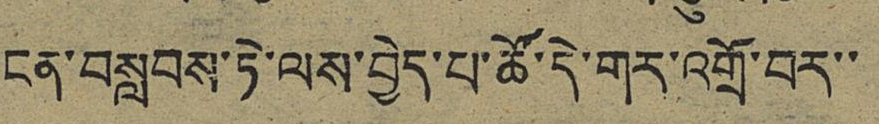ངན་བསླབས་ཏེ་ལས་བྱེད་པ་ཚོ་དེ་གར་འགྲོ་བར་་
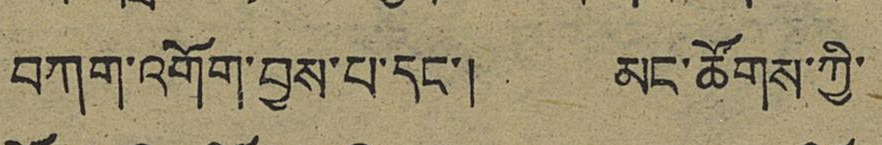བཀག་འགོག་བྱས་པ་དང་། མང་ཚོགས་ཀྱི་
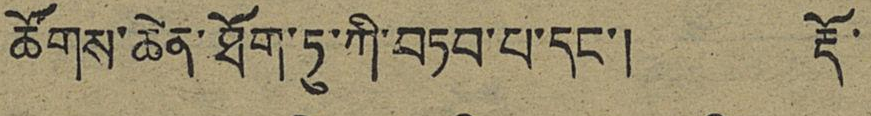ཚོགས་ཆེན་ཐོག་ཏུ་ཀི་བཏབ་པ་དང་། རྡོ་
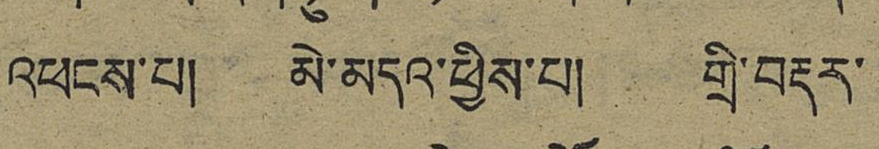འཕངས་པ། མེ་མདའ་ཕྱིས་པ། གྲི་བརྡར་
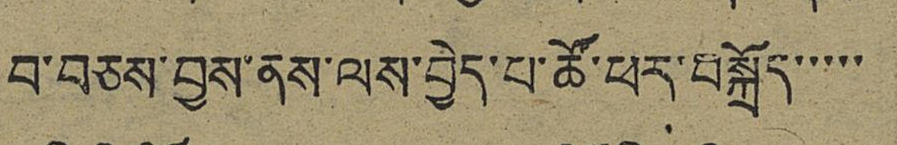བ་བཅས་བྱས་ནས་ལས་བྱེད་པ་ཚོ་ཕར་བསྐྲོད་་་་་་
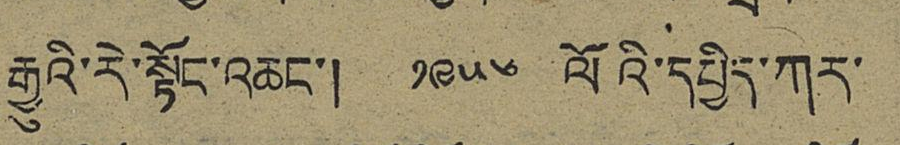རྒྱུའི་རེ་སྟོང་འཆང་། ༡༩༥༦ ལོའི་དཔྱིད་ཀར་
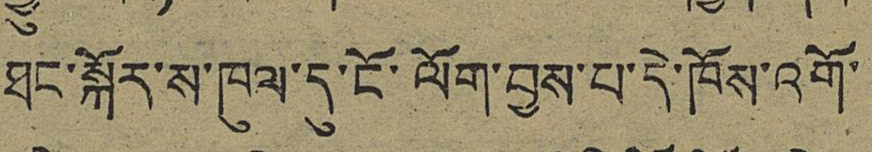ཐང་སྐོར་ས་ཁུལ་དུ་ངོ་ལོག་བྱས་པ་དེ་ཁོས་འགོ་
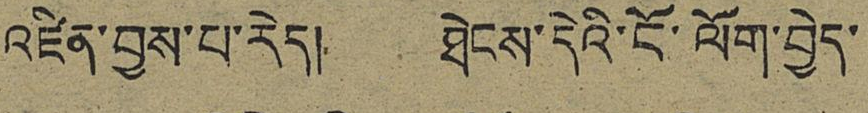འཛིན་བྱས་པ་རེད། ཐེངས་དེའི་ངོ་ལོག་བྱེད་
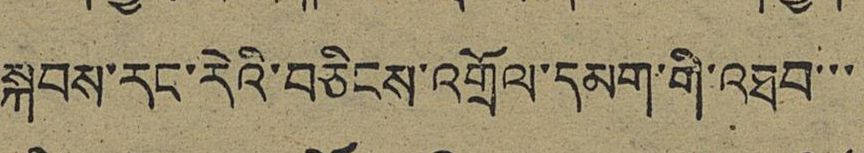སྐབས་རང་རེའི་བཅིངས་འགྲོལ་དམག་གི་འཐབ་་་
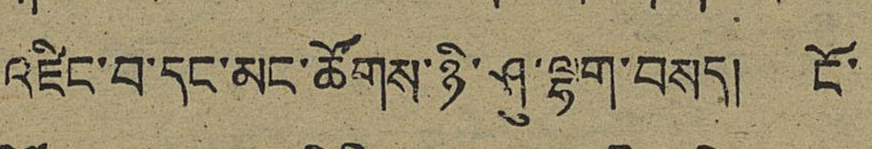འཛིང་བ་དང་མང་ཚོགས་ཉི་ཤུ་ལྷག་བསད། ངོ་
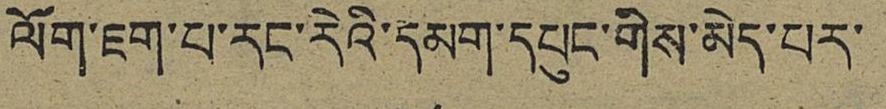ལོག་ཇག་པ་རང་རེའི་དམག་དཔུང་གིས་མེད་པར་
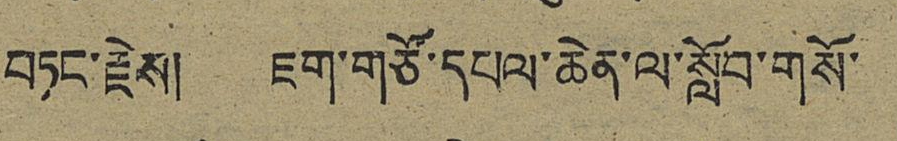བཏང་རྗེས། ཇག་གཙོ་དཔལ་ཆེན་ལ་སློབ་གསོ་
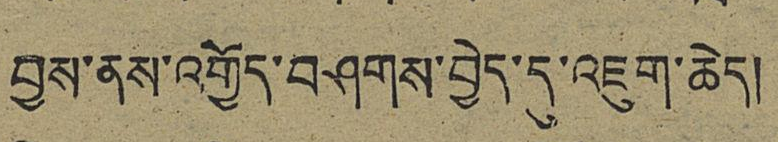བྱས་ནས་འགྱོད་བཤགས་བྱེད་དུ་འཇུག་ཆེད།
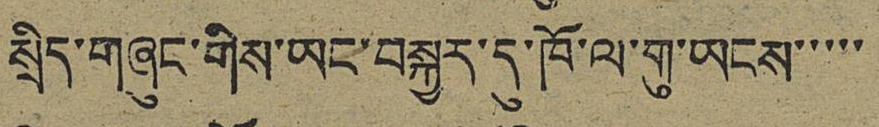སྲིད་གཞུང་གིས་ཡང་བསྐྱར་དུ་ཁོ་ལ་གུ་ཡངས་་་་་
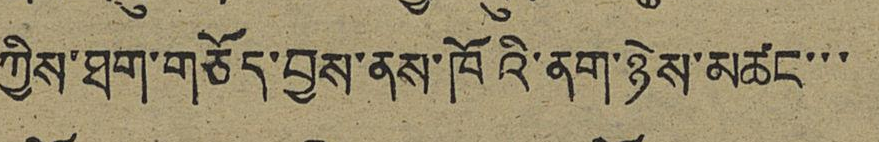ཀྱིས་ཐག་གཅོད་བྱས་ནས་ཁོའི་ནག་ཉེས་མཚང་་་
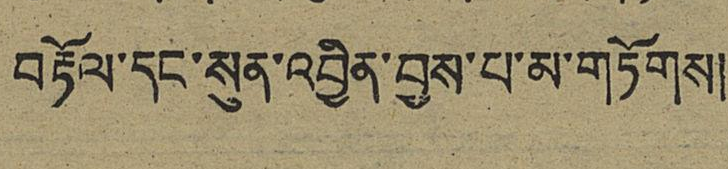བརྟོལ་དང་སུན་འབྱིན་བྱས་པ་མ་གཏོགས།
